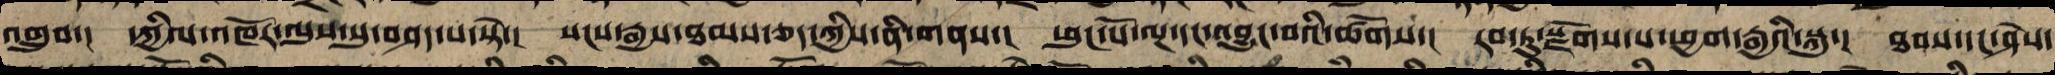འགྲུབ་། དཀྱིལ་འཁོར་ལུས་སུ་བཤད་པ་སྟེ་། སངས་རྒྱས་ཐམས་ཅད་ཀྱི་ནི་གནས་། ཕུང་པོ་ལྔ་དང་འབྱུང་བའི་ཚོགས་། རབ་ཏུ་སྫོགས་པ་ཕྱག་རྒྱའི་སྐུ་། ཐབས་དང་ཤེས་
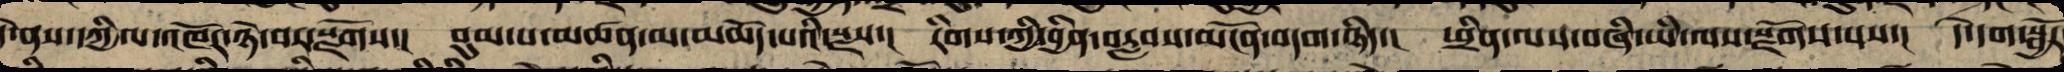དེ་ནས་དཀྱིལ་འཁོར་ཉེ་བར་སྫོགས་། བུམ་པ་མཚན་མ་མཆོད་པའི་སྫས། རིགས་ཀྱི་བྱིན་བརླབས་མངོན་བདག་ཉིད་། ཕྲིན་ལས་བཞི་ཡི་ལས་སྫོགས་པས་། དེ་དག་སྦྱོར
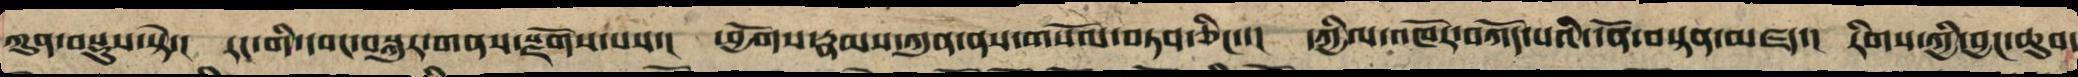ཀུན་བསྡུས་སྟེ་། རང་གི་དབང་བསྐུར་གནས་སྫོགས་པས་། ཕྱོགས་རྣམས་ཀུན་ནས་གསོལ་བཏབ་ཅིང་་། དཀྱིལ་འཁོར་བཀོད་པའི་དོན་བསྟན་མཛད་། རིགས་ཀྱི་བྱང་ཆུབ་
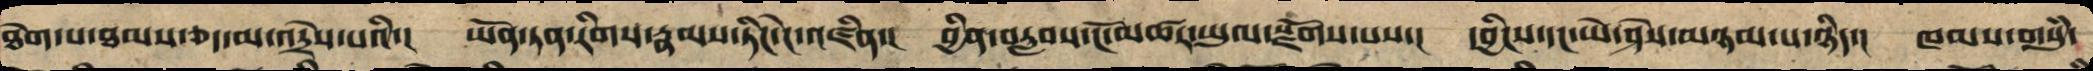ཐེག་པ་ཐམས་ཅད་མ་འདྲེས་པའི་། ཡོན་ཏན་རིགས་རྣམས་ཏིང་ངེ་འཛིན་། བྱིན་བརླབས་ངོ་མཚར་ཡུལ་སྫོགས་པས་། དབྱིངས་དང་ཡེ་ཤེས་མཉམ་པ་ཉིད་། ཁམས་གསུཾ་
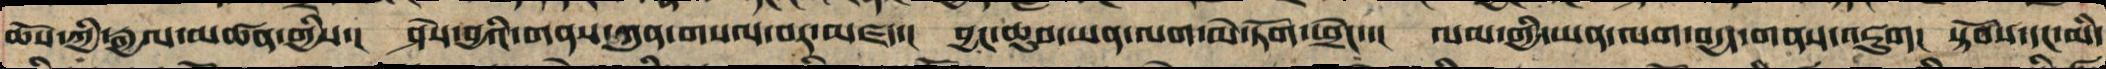ཆོས་ཀྱི་རྒྱལ་མཚན་གྱིས་། ཤེས་བྱའི་གནས་ཀུན་གསལ་བར་མཛད་། བྱང་ཆུབ་ཡན་ལག་མེ་ཏོག་ཕྲེང་་། ལམ་གྱི་ཡན་ལག་བདྱད་གནས་འཇུག། སྟོབས་དང་མི་
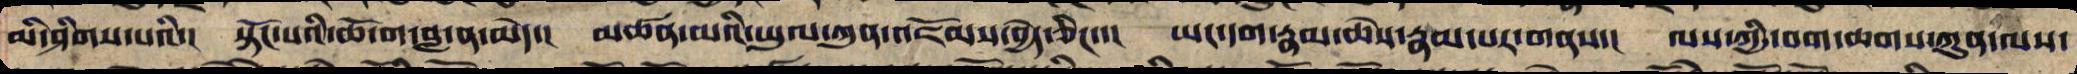མི་ཤིགས་པའི་། སྟོང་པའི་གོ་ཆ་བླ་ན་མེད་། མཚན་མའི་ཡུལ་ཀུན་འཇོམས་བྱེད་ཅིང་་། ཡང་དག་རྣམ་ཆེས་རྣམ་པར་གནས་། ལས་ཀྱི་བག་ཆགས་ཀུན་ལས་
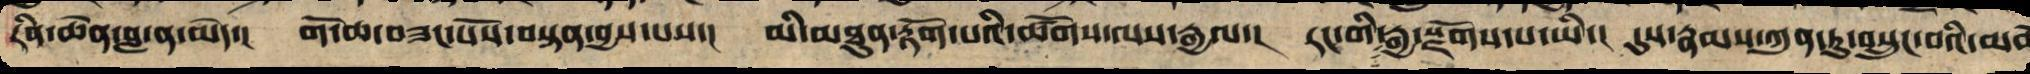རིན་ཆེན་བླ་ན་མེད་། གོ་ཆ་བཟང་པོས་བསྟན་བྱས་པས་། མི་མཐུན་རྟོག་པའི་ཚོགས་ལས་རྒྱལ་། རང་གི་རྒྱ་སྫོགས་པ་ཡི་། དུས་རྣམས་ཀུན་ཏུ་བསྲུང་བའི་མཆོ
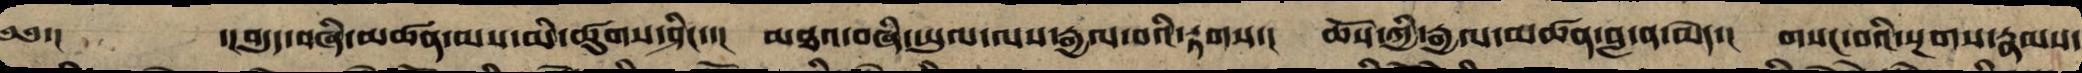༄༅་།        ད།བདུད་བཞི་མཚན་མས་མི་ཚུགས་ཤིང་་། མཐའ་བཞི་ཡུལ་ལས་རྒྱལ་བའི་རྟགས་། ཆོས་ཀྱི་རྒྱལ་མཚན་བླ་ན་མེད་། གསང་བའི་སྔགས་རྣམས་
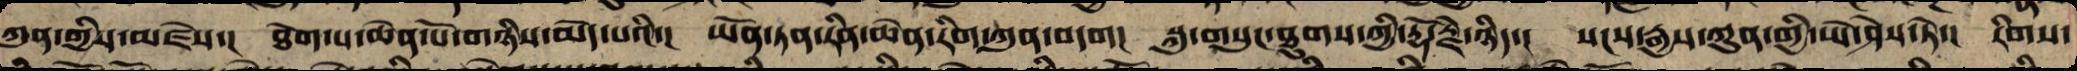ཀུན་གྱིས་མཛེས་།  ཐེག་པ་ཆེན་པོ་གཉིས་མེད་པའི་། ཡོན་ཏན་རིན་ཆེན་རིག་ཀུན་བདག། སྐུ་གསུང་ཐུགས་ཀྱི་རྡོ་རྗེ་ཉིད་། སངས་རྒྱས་ཀུན་གྱི་ཡེ་ཤེས་ཏེ་། རིགས་
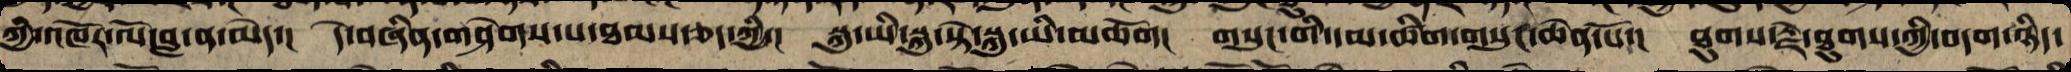ཀྱི་འཁོར་ལོ་བླ་ན་མེད་། དེ་བཞིན་གཤེགས་པ་ཐམས་ཅད་ཀྱི་། སྐུ་ཡི་སྐུ་སྟེ་སྐུ་ཡི་མཆོག། གསུང་གི་དམ་ཚིག་གསུང་ཆེན་པོ་། ཐུགས་རྗེ་ཐུགས་ཀྱི་བདག་ཉིད་
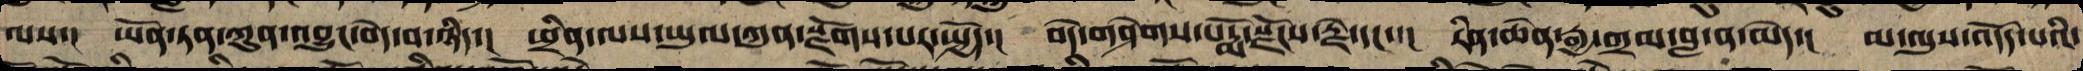ལས་། ཡོན་ཏན་ཀུན་འབྱུང་བདེ་བ་ཉིད་། ཕྲིན་ལས་ཡུལ་ཀུན་སྫོགས་པར་སྤྱོད་། བདེ་གཤེགས་པདྨོ་སྫོངས་རྗེ་དང་་། རིན་ཆེན་རྒྱ་གྲམ་བླ་ན་མེད་། མ་ལུས་འདོད་པའི་
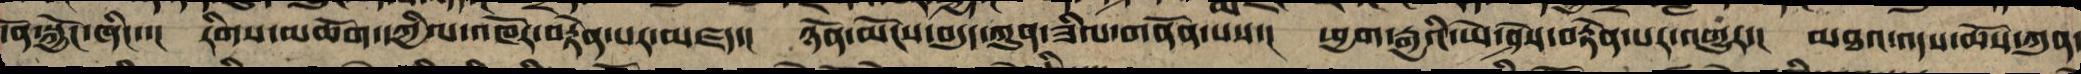དོན་སྐྱོང་ཞིང་་། རིགས་མཆོག་དཀྱིལ་འཁོར་བརྟེན་པར་མཛད་། ཉོན་མོངས་བདུད་ཀུན་ཟིལ་གནོན་པས་། ཕྱག་རྒྱའི་ཡེ་ཤེས་བརྟེན་པར་འགྱུར་། མཐའ་འདས་ཆོས་ཀུན་
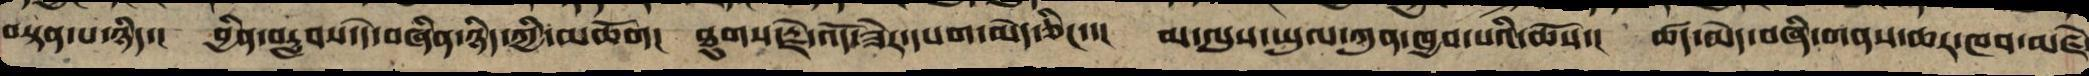བསྟན་པ་ཉིད་། བྱིན་བརླབས་དེ་བཞིན་ཉིད་ཀྱི་མཆོག། ཐུགས་རྗེ་འོད་ཟེར་དཔག་མེད་ཅིང་་། མ་ལུས་ཡུལ་ཀུན་ཁྱབ་པའི་ཆོས་། ཚད་མེད་བཞི་གནས་ཆར་ཁབ་མཛེ
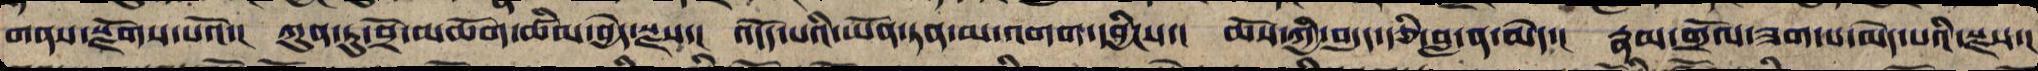གནས་རྫོགས་པའོ་། ཀུན་ཏུ་བྲོ་མཆོག་ཚིམ་བྱེད་སྫས་། འདོད་པའི་ཡོན་ཏན་མ་འགགས་དབྱིངས་། ཆོས་ཀྱི་བདུད་རྩི་བླ་ན་མེད་། རྣམ་གྲོལ་ཟག་པ་མེད་པའི་སྫས་།
